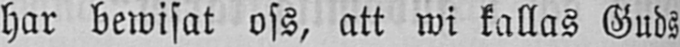har bewisat oss, att wi kallas Guds
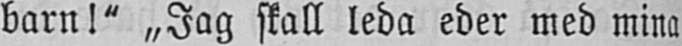barn!" „Iag skall leda eder med mina
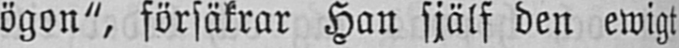ögon", försäkrar Han själf den ewigt
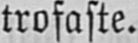trofaste.
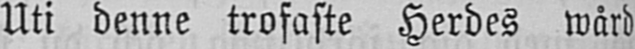Uti denne trofaste Herdes wård
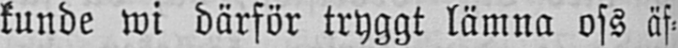kunde wi därför tryggt lämna oss äf-
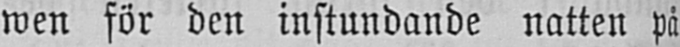wen för den instundande natten på
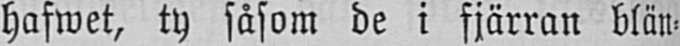hafwet, ty såsom de i fjärran blän-
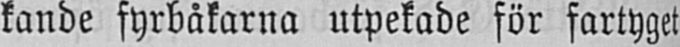kande fyrbåkarna utpekade för fartyget
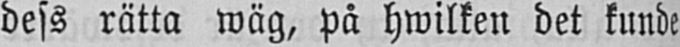dess rätta wäg, på hwilken det kunde
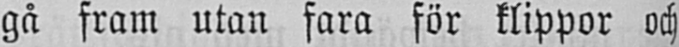gå fram utan fara för klippor och
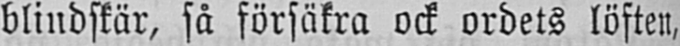blindskär, så försäkra ock ordets löften,
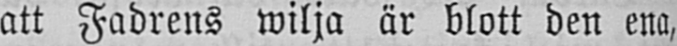att Fadrens wilja är blott den ena,
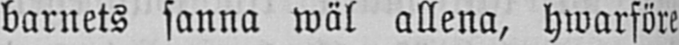barnets sanna wäl allena, hwarföre
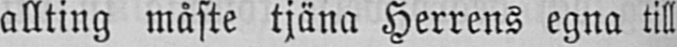allting måste tjäna Herrens egna till
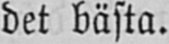det bästa.
